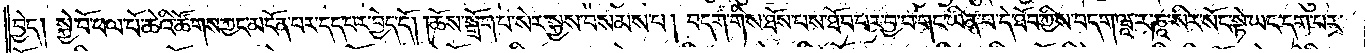བྱེད། སྐྱེ་བོ་ཕལ་པོ་ཆེའི་ཚོགས་ཀྱང་མངོན་པར་དད་པར་བྱེད་དོ། །ཆོས་སྒྲོག་པ་སེར་སྐྱས་བསམས་པ། བདག་གིས་ཐོས་པས་ཐོབ་པར་བྱ་བ་གང་ཡིན་པ་དེ་ཐོབ་ཀྱིས་བདག་ཝཱ་ར་ཎཱ་སིར་སོང་སྟེ་ཡང་དག་པར་
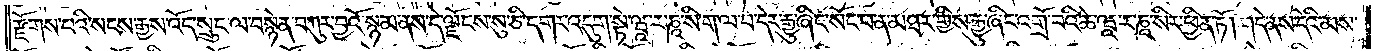རྫོགས་པའི་སངས་རྒྱས་འོད་སྲུང་ལ་བསྙེན་བཀུར་བྱའོ་སྙམ་ནས་དེ་ལྗོངས་སུ་ཅི་དགར་འདུག་སྟེ་ཝཱ་ར་ཎཱ་སི་ག་ལ་བ་དེར་རྒྱུ་ཞིང་སོང་བ་ན་མཐར་གྱིས་རྒྱུ་ཞིང་འགྲོ་བའི་ཆེ་ཝཱ་ར་ཎཱ་སིར་ཕྱིན་ཏོ། །དེ་ནས་དེའི་མས་
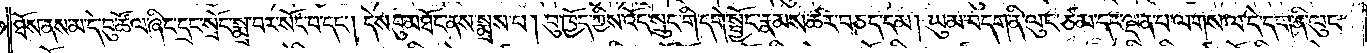ཐོས་ནས་མ་དེ་བུ་ཚོལ་ཞིང་དྲང་སྲོང་སྨྲ་བར་སོང་བ་དང༌། དེས་བུ་མཐོང་ནས་སྨྲས་པ། བུ་ཁྱོད་ཀྱིས་འོད་སྲུང་གི་དགེ་སྦྱོང་རྣམས་ཚར་བཅད་དམ། ཡུམ་བདག་ནི་ལུང་ཙམ་དང་ལྡན་པ་ལགས་ལ་དེ་དག་ནི་ལུང་
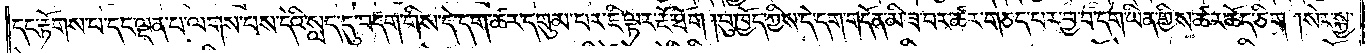དང་རྟོགས་པ་དང་ལྡན་པ་ལགས་པས་དེའི་སླད་དུ་བདག་གིས་དེ་དག་ཚར་དགུམ་པར་ཇི་ལྟར་རྔོ་ཐོག །བུ་ཁྱོད་ཀྱིས་དེ་དག་གདོན་མི་ཟ་བར་ཚར་གཅད་པར་བྱ་བ་དག་ཡིན་གྱིས་ཚར་ཆོད་ཅིག །སེར་སྐྱ་
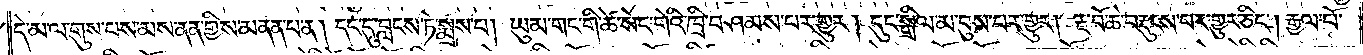དེ་མ་ལ་གུས་པས་མས་ནན་གྱིས་མནན་པ་ན། དང་དུ་བླངས་ཏེ་སྨྲས་པ། ཡུམ་གང་གི་ཚེ་སེང་གེའི་ཁྲི་བཤམས་པར་གྱུར། དུང་སྒྲིལ་མ་བུས་པར་གྱུར། རྔ་བོ་ཆེ་བརྡུངས་པར་གྱུར་ཅིང༌། རྒྱལ་པོ་
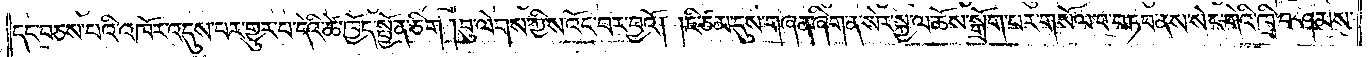དང་བཅས་པའི་འཁོར་འདུས་པར་གྱུར་པ་དེའི་ཚེ་ཁྱོད་སྤྱོན་ཅིག །བུ་ལེགས་ཀྱིས་འོང་བར་བྱའོ། །ཇི་ཙམ་དུས་གཞན་ཞིག་ན་སེར་སྐྱ་ལ་ཆོས་སྒྲོག་པར་གསོལ་བ་བཏབ་ནས་སེང་གེའི་ཁྲི་བཤམས་
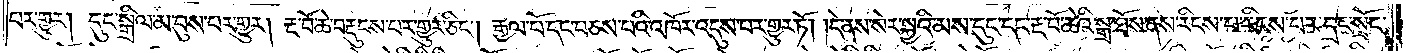པར་གྱུར། དུང་སྒྲིལ་མ་བུས་པར་གྱུར། རྔ་བོ་ཆེ་བརྡུངས་པར་གྱུར་ཅིང༌། རྒྱལ་པོ་དང་བཅས་པའི་འཁོར་འདུས་པར་གྱུར་ཏོ། །དེ་ནས་སེར་སྐྱའི་མས་དུང་དང་རྔ་བོ་ཆེའི་སྒྲ་ཐོས་ནས་རིངས་པ་རིངས་པར་དྲང་སྲོང་
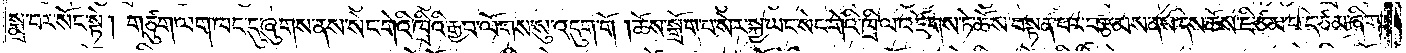སྨྲ་བར་སོང་སྟེ། གཙུག་ལག་ཁང་དུ་ཞུགས་ནས་སེང་གེའི་ཁྲིའི་རྒྱབ་ལོགས་སུ་འདུག་གོ །ཆོས་སྒྲོག་པ་སེར་སྐྱ་ཡང་སེང་གེའི་ཁྲི་ལ་འཛེགས་ཏེ་ཆོས་བསྟན་པར་བརྩམས་ནས་དེས་ཆོས་ཇི་ཙམ་པ་དེ་ཙམ་ཞིག་
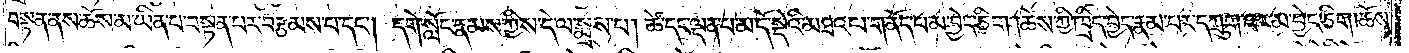བསྟན་ནས་ཆོས་མ་ཡིན་པ་བསྟན་པར་བརྩམས་པ་དང༌། དགེ་སློང་རྣམས་ཀྱིས་དེ་ལ་སྨྲས་པ། ཚེ་དང་ལྡན་པ་མདོ་སྡེའི་མཐའ་ལ་གནོད་པ་མ་བྱེད་ཅིག །ཆོས་ཀྱི་ཁྲིད་བྱེད་རྣམ་པར་དཀྲུག་པར་མ་བྱེད་ཅིག །ཆོས་
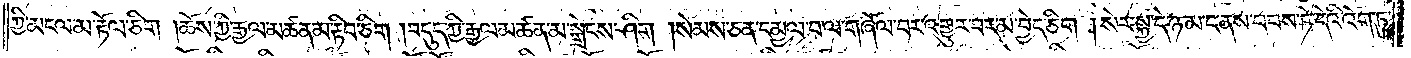ཀྱི་མངལ་མ་རྟོལ་ཅིག །ཆོས་ཀྱི་རྒྱལ་མཚན་མ་རྟིབ་ཅིག །བདུད་ཀྱི་རྒྱལ་མཚན་མ་སྒྲེངས་ཤིག །སེམས་ཅན་དམྱལ་བ་ལ་གཞོལ་བར་འགྱུར་བར་མ་བྱེད་ཅིག །སེར་སྐྱ་དེ་ཉམ་ང་ནས་བབས་ཏེ་དེའི་འོག་ཏུ་
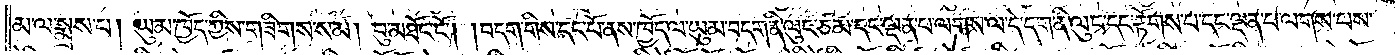མ་ལ་སྨྲས་པ། ཡུམ་ཁྱོད་ཀྱིས་གཟིགས་སམ། བུ་མཐོང་ངོ༌། །བདག་གིས་དང་པོ་ནས་ཁྱོད་ལ་ཡུམ་བདག་ནི་ལུང་ཙམ་དང་ལྡན་པ་ལགས་ལ་དེ་དག་ནི་ལུང་དང་རྟོགས་པ་དང་ལྡན་པ་ལགས་པས་
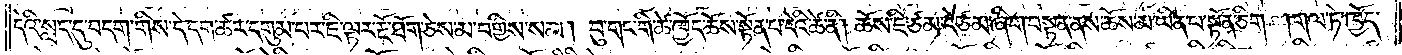དེའི་སླད་དུ་བདག་གིས་དེ་དག་ཚར་དགུམ་པར་ཇི་ལྟར་རྔོ་ཐོག་ཅེས་མ་བགྱིས་སམ། བུ་གང་གི་ཚེ་ཁྱོད་ཆོས་སྟོན་པ་དེའི་ཚེ་ནི། ཆོས་ཇི་ཙམ་དེ་ཙམ་ཞིག་བསྟན་ནས་ཆོས་མ་ཡིན་པ་སྟོན་ཅིག །གལ་ཏེ་ཁྱོད་
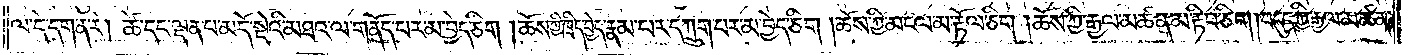ལ་དེ་དག་ན་རེ། ཚེ་དང་ལྡན་པ་མདོ་སྡེའི་མཐའ་ལ་གནོད་པར་མ་བྱེད་ཅིག །ཆོས་ཀྱི་ཁྲིད་བྱེད་རྣམས་པར་དཀྲུག་པར་མ་བྱེད་ཅིག །ཆོས་ཀྱི་མངལ་མ་རྟོལ་ཅིག །ཆོས་ཀྱི་རྒྱལ་མཚན་མ་རྟིབ་ཅིག །བདུད་ཀྱི་རྒྱལ་མཚན་
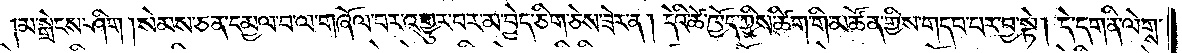།མ་སྒྲེངས་ཤིག །སེམས་ཅན་དམྱལ་བ་ལ་གཞོལ་བར་འགྱུར་བར་མ་བྱེད་ཅིག་ཅེས་ཟེར་ན། དེའི་ཚེ་ཁྱོད་ཀྱིས་ཚིག་གི་མཚོན་གྱིས་གདབ་པར་བྱ་སྟེ། དེ་དག་ནི་ལེགས་
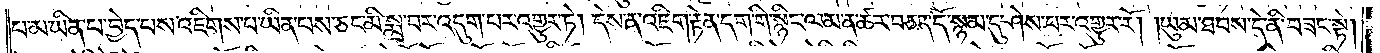པ་མ་ཡིན་པ་བྱེད་པས་འཇིགས་པ་ཡིན་པས་ཅང་མི་སྨྲ་བར་འདུག་པར་འགྱུར་ཏེ། དེས་ན་འཇིག་རྟེན་དག་གི་སྙིང་ལམ་ན་ཚར་བཅད་དོ་སྙམ་དུ་ཤེས་པར་འགྱུར་རོ། །ཡུམ་ཐབས་དེ་ནི་བཟང་སྟེ།
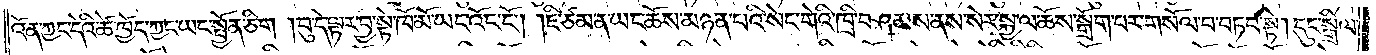འོན་ཀྱང་དེའི་ཚེ་ཁྱོད་ཀྱང་ཡང་སྤྱོན་ཅིག །བུ་དེ་ལྟར་བྱ་སྟེ་ཁོ་མོ་ཡང་འོང་ངོ༌། །ཇི་ཙམ་ན་ཡང་ཆོས་མཉན་པའི་སེང་གེའི་ཁྲི་བཤམས་ནས་སེར་སྐྱ་ལ་ཆོས་སྒྲོག་པར་གསོལ་བ་བཏབ་སྟེ། དུང་སྒྲིལ་
